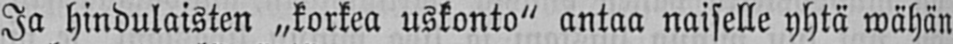Ja hindulaisten „korkea uskonto" antaa naiselle yhtä wähän
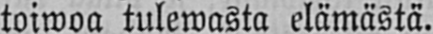toiwoa tulewasta elämästä.
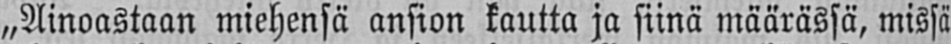Ainoastaan miehensä ansion kautta ja siinä määrässä, missä
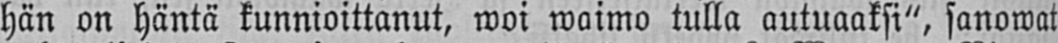hän on häntä kunnioittanut, woi waimo tulla autuaaksi", sanowat
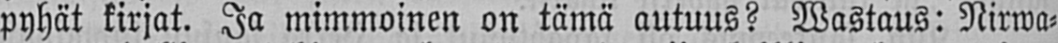pyhät kirjat. Ja mimmoinen on tämä autuus? Wastaus: Nirwa-
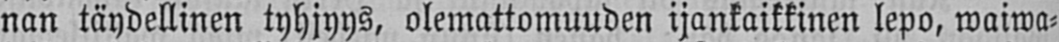nan täydellinen tyhjyys, olemattomuuden ijankaikkinen lepo, waiwa-
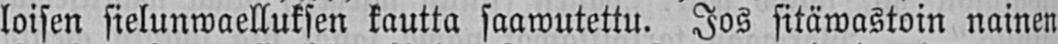loisen sielunwaelluksen kautta saawutettu. Jos sitäwastoin nainen
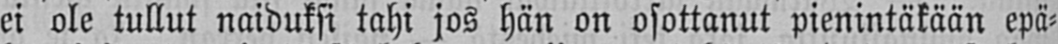ei ole tullut naiduksi tahi jos hän on osottanut pienintäkään epä-
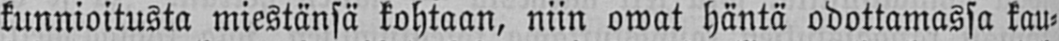kunnioitusta miestänsä kohtaan, niin owat häntä odottamassa kau-
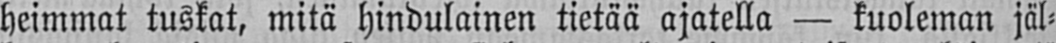heimmat tuskat, mitä hindulainen tietää ajatella — kuoleman jäl-
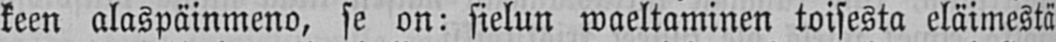keen alaspäinmeno, se on: sielun waeltaminen toisesta eläimestä
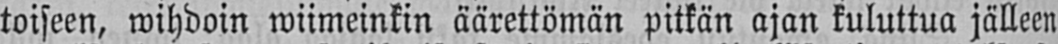toiseen, wihdoin wiimeinkin äärettömän pitkän ajan kuluttua jälleen
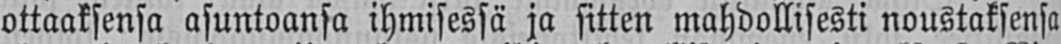ottaaksensa asuntoansa ihmisessä ja sitten mahdollisesti noustaksensa
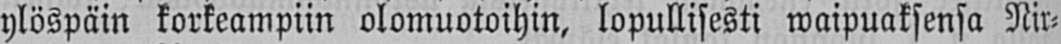ylöspäin korkeampiin olomuotoihin, lopullisesti waipuaksensa Nir-
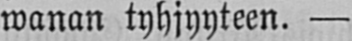wanan tyhjyyteen. —
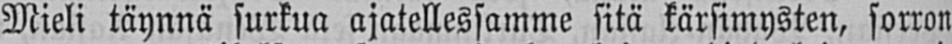Mieli täynnä surkua ajatellessamme sitä kärsimysten, sorron
